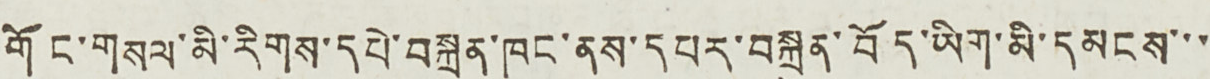གོང་གསལ་མི་རིགས་དཔེ་བསྐྲུན་ཁང་ནས་དཔར་བསྐྲུན་བོད་ཡིག་མི་དམངས་་་
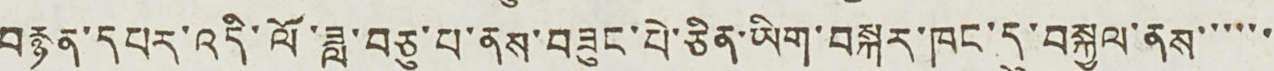བརྙན་དཔར་འདི་ལོ་ཟླ་བཅུ་པ་ནས་བཟུང་པེ་ཅིན་ཡིག་བསྐུར་ཁང་དུ་བསྐྱལ་ནས་་་་་་
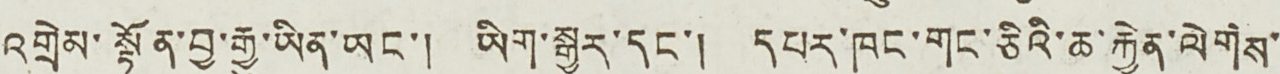འགྲེམ་སྟོན་བྱ་རྒྱུ་ཡིན་ཡང་། ཡིག་སྒྱུར་དང་། དཔར་ཁང་གང་ཅིའི་ཆ་རྐྱེན་ལེགས་
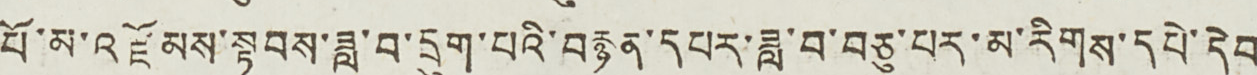པོ་མ་འཛོམས་སྟབས་ཟླ་བ་དྲུག་པའི་བརྙན་དཔར་ཟླ་བ་བཅུ་པར་མ་རིགས་དཔེ་དེབ་
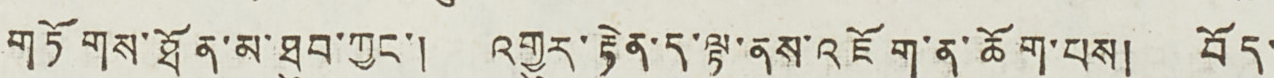གཏོགས་ཐོན་མ་ཐུབ་ཀྱང་། འགྱུར་རྟེན་ད་ལྟ་ནས་འཇོག་ན་ཆོག་པས། བོད་
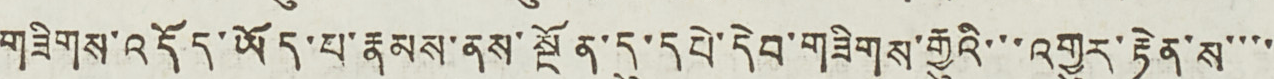གཟིགས་འདོད་ཡོད་པ་རྣམས་ནས་སྔོན་དུ་དཔེ་དེབ་གཟིགས་རྒྱུའི་་་འགྱུར་རྟེན་ས་་་་
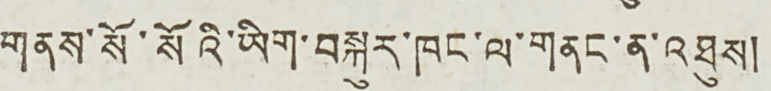གནས་སོ་སོའི་ཡིག་བསྐུར་ཁང་ལ་གནང་ན་འཐུས།
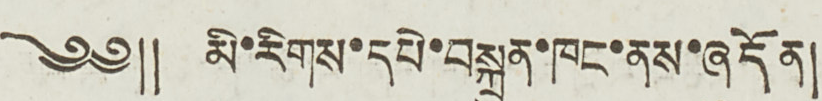༄༅༎ མི་རིགས་དཔེ་བསྐྲུན་ཁང་ནས་ཞུདོན།
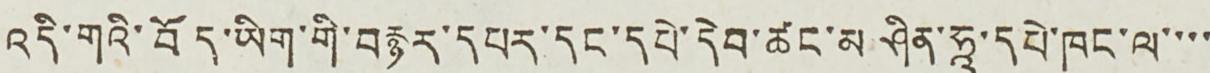འདི་གའི་བོད་ཡིག་གི་བརྙར་དཔར་དང་དཔེ་དེབ་ཚང་མ ཤིན་ཧཱ་དཔེ་ཁང་ལ་་་་
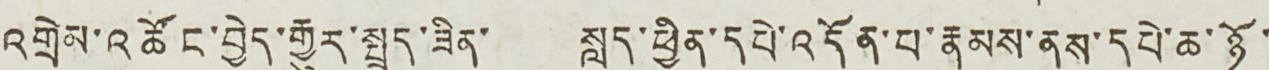འགྲེམ་འཚོང་བྱེད་རྒྱུར་སྤྲད་ཟིན་ སླད་ཕྱིན་དཔེ་འདོན་པ་རྣམས་ནས་དཔེ་ཆ་ཉོ་
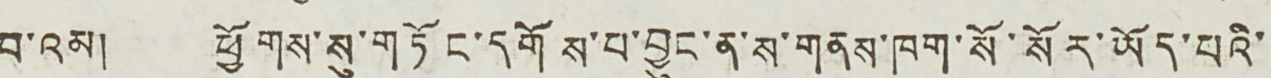བ་འམ། ཕྱོགས་སུ་གཏོང་དགོས་པ་བྱུང་ན་ས་གནས་ཁག་སོ་སོར་ཡོད་པའི་
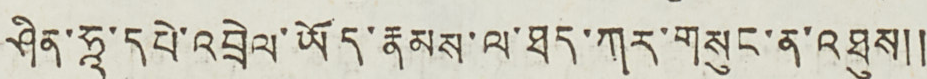ཤིན་ཧཱ་དཔེ་འབྲེལ་ཡོད་རྣམས་ལ་ཐད་ཀར་གསུང་ན་འཐུས༎
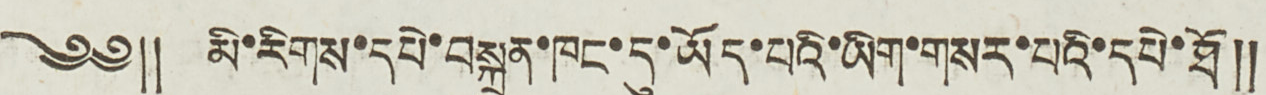༄༅༎ མི་རིགས་དཔེ་བསྐྲུན་ཁང་དུ་ཡོད་པའི་ཡིག་གསར་པའི་དཔེ་ཐོ༎
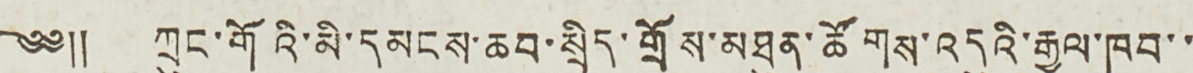༄༅༎ ཀྲུང་གོའི་མི་དམངས་ཆབ་སྲིད་གྲོས་མཐུན་ཚོགས་འདུའི་རྒྱལ་ཁབ་་
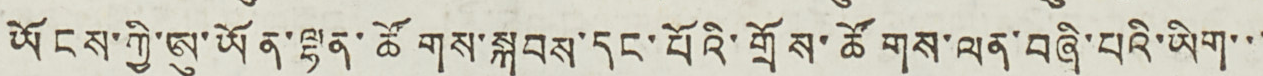ཡོངས་ཀྱི་ཨུ་ཡོན་ལྷན་ཚོགས་སྐབས་དང་པོའི་གྲོས་ཚོགས་ལན་བཞི་པའི་ཡིག་་་
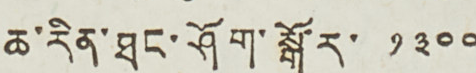ཆ་རིན་ཐང་ཤོག་སྒོར་ ༡༣༠༠
